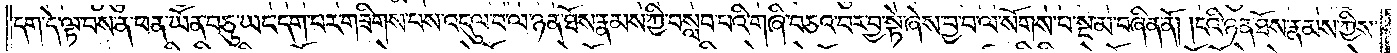དག་དེ་ལྟ་བས་ན་ཕན་ཡོན་བཅུ་ཡང་དག་པར་གཟིགས་པས་འདུལ་བ་ལ་ཉན་ཐོས་རྣམས་ཀྱི་བསླབ་པའི་གཞི་བཅའ་བར་བྱ་སྟེ་ཞེས་བྱ་བ་ལ་སོགས་པ་སྔ་མ་བཞིན་ནོ། །ངའི་ཉན་ཐོས་རྣམས་ཀྱིས་
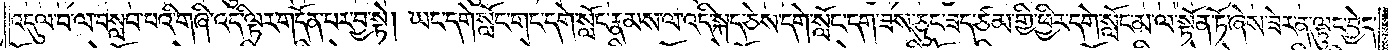འདུལ་བ་ལ་བསླབ་པའི་གཞི་འདི་ལྟར་གདོན་པར་བྱ་སྟེ། ཡང་དགེ་སློང་གང་དགེ་སློང་རྣམས་ལ་འདི་སྐད་ཅེས་དགེ་སློང་དག་ཟས་ཅུང་ཟད་ཙམ་གྱི་ཕྱིར་དགེ་སློང་མ་ལ་སྟོན་ཏོ་ཞེས་ཟེར་ན་ལྟུང་བྱེད་
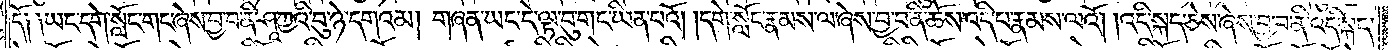དོ། །ཡང་དགེ་སློང་གང་ཞེས་བྱ་བ་ནི་ཤཱཀྱའི་བུ་ཉེ་དགའམ། གཞན་ཡང་དེ་ལྟ་བུ་གང་ཡིན་པའོ། །དགེ་སློང་རྣམས་ལ་ཞེས་བྱ་བ་ནི་ཆོས་འདི་པ་རྣམས་ལའོ། །འདི་སྐད་ཅེས་ཞེས་བྱ་བ་ནི་འདི་སྐད་
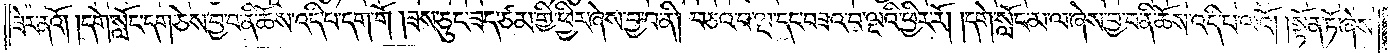ཟེར་ནའོ། །དགེ་སློང་དག་ཅེས་བྱ་བ་ནི་ཆོས་འདི་བ་དག་གོ །ཟས་ཅུང་ཟད་ཙམ་གྱི་ཕྱིར་ཞེས་བྱ་བ་ནི། བཅའ་བ་ལྔ་དང་བཟའ་བ་ལྔའི་ཕྱིར་རོ། །དགེ་སློང་མ་ལ་ཞེས་བྱ་བ་ནི་ཆོས་འདི་པ་ལའོ། །སྟོན་ཏོ་ཞེས་
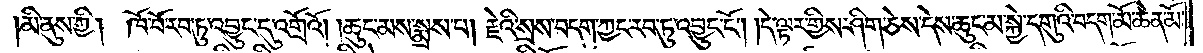མི་ནུས་ཀྱི། ཁོ་བོ་རབ་ཏུ་འབྱུང་དུ་འགྲོའོ། །ཆུང་མས་སྨྲས་པ། རྗེའི་སྲས་བདག་ཀྱང་རབ་ཏུ་འབྱུང་ངོ༌། །དེ་ལྟར་གྱིས་ཤིག་ཅེས་དེས་ཆུང་མ་སྐྱེ་དགུའི་བདག་མོ་ཆེན་མོ་
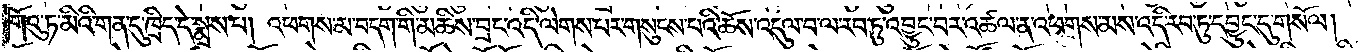གོའུ་ཏ་མིའི་གན་དུ་ཁྲིད་དེ་སྨྲས་པ། འཕགས་མ་བདག་གི་མཆིས་བྲང་འདི་ལེགས་པར་གསུངས་པའི་ཆོས་འདུལ་བ་ལ་རབ་ཏུ་འབྱུང་བར་འཚལ་ན་འཕགས་མས་འདི་རབ་ཏུ་དབྱུང་དུ་གསོལ།
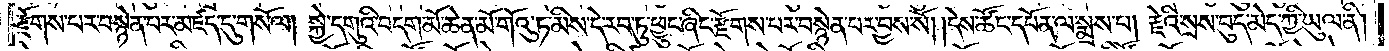རྫོགས་པར་བསྙེན་པར་མཛད་དུ་གསོལ། སྐྱེ་དགུའི་བདག་མོ་ཆེན་མོ་གོའུ་ཏ་མིས་དེ་རབ་ཏུ་ཕྱུང་ཞིང་རྫོགས་པར་བསྙེན་པར་བྱས་སོ། །དེས་ཚོང་དཔོན་ལ་སྨྲས་པ། རྗེའི་སྲས་བུད་མེད་ཀྱི་ཡུལ་ནི།
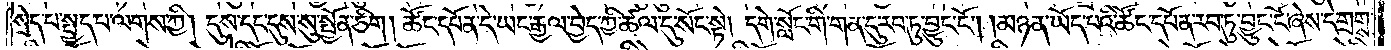སྲེད་པ་སྤྱད་པ་ལགས་ཀྱི། དུས་དང་དུས་སུ་སྤྱོན་ཅིག །ཚོང་དཔོན་དེ་ཡང་རྒྱལ་བྱེད་ཀྱི་ཚལ་དུ་སོང་སྟེ། དགེ་སློང་གི་གན་དུ་རབ་ཏུ་བྱུང་ངོ༌། །མཉན་ཡོད་པའི་ཚོང་དཔོན་རབ་ཏུ་བྱུང་ངོ་ཞེས་དེ་གྲག
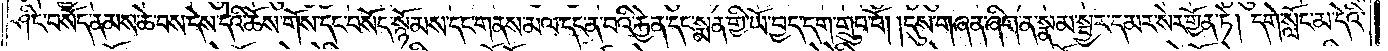ཤིང་བསོད་ནམས་ཆེ་བས་དེས་དེའི་ཆོས་གོས་དང་བསོད་སྙོམས་དང་གནས་མལ་དང་ན་བའི་རྐྱེན་དང་སྨན་གྱི་ཡོ་བྱད་དག་གྲུབ་བོ། །དུས་གཞན་ཞིག་ན་སྣམ་སྦྱར་དམར་སེར་གྱོན་ཏེ། དགེ་སློང་མ་དེའི་
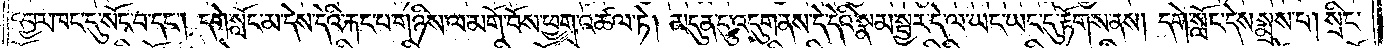དབྱར་ཁང་དུ་སོང་བ་དང༌། དགེ་སློང་མ་དེས་དེའི་རྐང་པ་གཉིས་ལ་མགོ་བོས་ཕྱག་འཚལ་ཏེ། མདུན་དུ་འདུག་ནས་དེ་དེའི་སྣམ་སྦྱར་དེ་ལ་ཡང་ཡང་དུ་རྟོགས་ནས། དགེ་སློང་དེས་སྨྲས་པ། སྲིང་
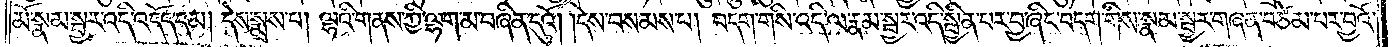མོ་སྣམ་སྦྱར་འདི་འདོད་དམ། དེས་སྨྲས་པ། ལྷའི་གནས་ཀྱི་ལྷག་མ་བཞིན་དུའོ། །དེས་བསམས་པ། བདག་གིས་འདི་ལ་རྣམ་སྦྱར་འདི་སྦྱིན་པར་བྱ་ཞིང་བདག་གིས་སྣམ་སྦྱར་གཞན་བཙེམ་པར་བྱའོ།
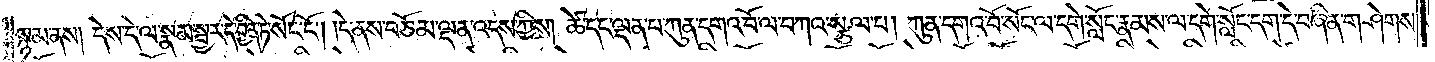སྙམ་ནས། དེས་དེ་ལ་སྣམ་སྦྱར་དེ་བྱིན་ཏེ་སོང་ངོ༌། །དེ་ནས་བཅོམ་ལྡན་འདས་ཀྱིས། ཚེ་དང་ལྡན་པ་ཀུན་དགའ་བོ་ལ་བཀའ་སྩལ་པ། ཀུན་དགའ་བོ་སོང་ལ་དགེ་སློང་རྣམས་ལ་དགེ་སློང་དག་དེ་བཞིན་གཤེགས་
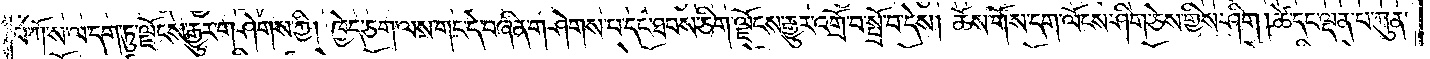པ་ཀོ་ས་ལ་དག་ཏུ་ལྗོངས་རྒྱུར་གཤེགས་ཀྱི། ཁྱེད་ཅག་ལས་གང་དེ་བཞིན་གཤེགས་པ་དང་ཐབས་ཅིག་ལྗོངས་རྒྱུར་འགྲོ་བ་སྤྲོ་བ་དེས། ཆོས་གོས་དག་ལོངས་ཤིག་ཅེས་གྱིས་ཤིག །ཚེ་དང་ལྡན་པ་ཀུན་
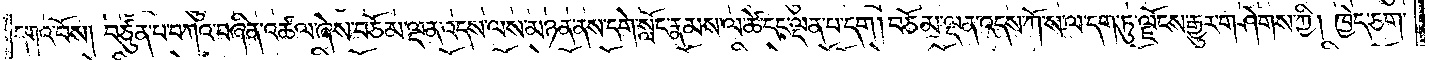དགའ་བོས། བཙུན་པ་བཀའ་བཞིན་འཚལ་ཞེས་བཅོམ་ལྡན་འདས་ལས་མཉན་ནས་དགེ་སློང་རྣམས་ལ་ཚེ་དང་ལྡན་པ་དག །བཅོམ་ལྡན་འདས་ཀོ་ས་ལ་དག་ཏུ་ལྗོངས་རྒྱུར་གཤེགས་ཀྱི། ཁྱེད་ཅག་
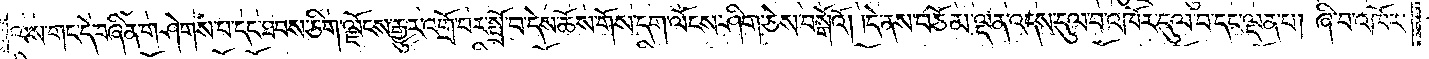ལས་གང་དེ་བཞིན་གཤེགས་པ་དང་ཐབས་ཅིག་ལྗོངས་རྒྱུར་འགྲོ་བར་སྤྲོ་བ་དེས་ཆོས་གོས་དག་ལོངས་ཤིག་ཅེས་བསྒོའོ། །དེ་ནས་བཅོམ་ལྡན་འདས་དུལ་བ་འཁོར་དུལ་བ་དང་ལྡན་པ། ཞི་བ་འཁོར་
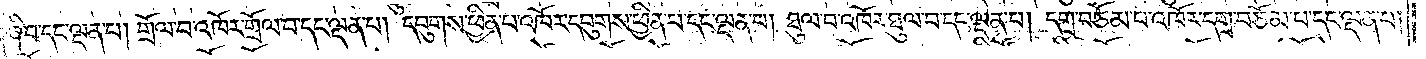ཞི་བ་དང་ལྡན་པ། གྲོལ་བ་འཁོར་གྲོལ་བ་དང་ལྡན་པ། དབུགས་ཕྱིན་པ་འཁོར་དབུགས་ཕྱིན་པ་དང་ལྡན་པ། ཐུལ་བ་འཁོར་ཐུལ་བ་དང་ལྡན་པ། དགྲ་བཅོམ་པ་འཁོར་དགྲ་བཅོམ་པ་དང་ལྡན་པ།
